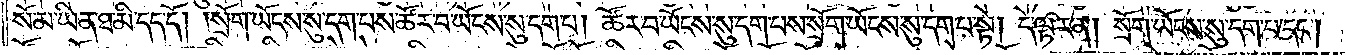སོ་མ་ཡིན་ཐ་མི་དད་དོ། །སྲོག་ཡོངས་སུ་དག་པས་ཚོར་བ་ཡོངས་སུ་དག་པ། ཚོར་བ་ཡོངས་སུ་དག་པས་སྲོག་ཡོངས་སུ་དག་པ་སྟེ། དེ་ལྟར་ན། སྲོག་ཡོངས་སུ་དག་པ་དང༌།
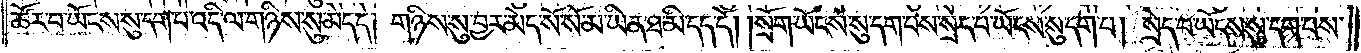ཚོར་བ་ཡོངས་སུ་དག་པ་འདི་ལ་གཉིས་སུ་མེད་དེ། གཉིས་སུ་བྱར་མེད་སོ་སོ་མ་ཡིན་ཐ་མི་དད་དོ། །སྲོག་ཡོངས་སུ་དག་པས་སྲེད་པ་ཡོངས་སུ་དག་པ། སྲེད་པ་ཡོངས་སུ་དག་པས་
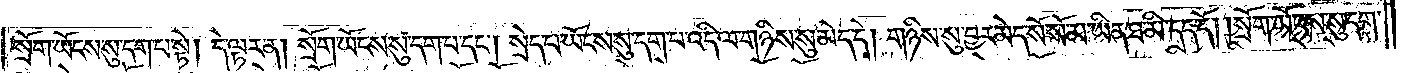སྲོག་ཡོངས་སུ་དག་པ་སྟེ། དེ་ལྟར་ན། སྲོག་ཡོངས་སུ་དག་པ་དང༌། སྲེད་པ་ཡོངས་སུ་དག་པ་འདི་ལ་གཉིས་སུ་མེད་དེ། གཉིས་སུ་བྱར་མེད་སོ་སོ་མ་ཡིན་ཐ་མི་དད་དོ། །སྲོག་ཡོངས་སུ་དག་
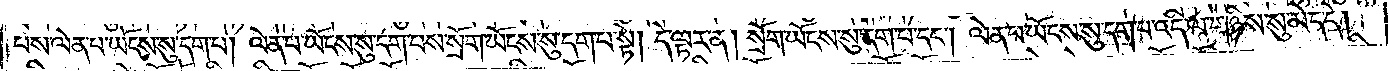པས་ལེན་པ་ཡོངས་སུ་དག་པ། ལེན་པ་ཡོངས་སུ་དག་པས་སྲོག་ཡོངས་སུ་དག་པ་སྟེ། དེ་ལྟར་ན། སྲོག་ཡོངས་སུ་དག་པ་དང༌། ལེན་པ་ཡོངས་སུ་དག་པ་འདི་ལ་གཉིས་སུ་མེད་དེ།
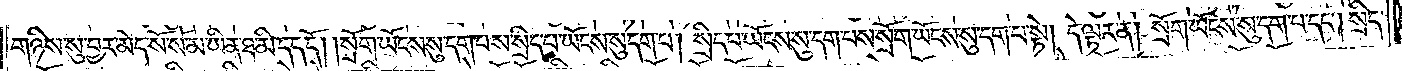གཉིས་སུ་བྱར་མེད་སོ་སོ་མ་ཡིན་ཐ་མི་དད་དོ། །སྲོག་ཡོངས་སུ་དག་པས་སྲིད་པ་ཡོངས་སུ་དག་པ། སྲིད་པ་ཡོངས་སུ་དག་པས་སྲོག་ཡོངས་སུ་དག་པ་སྟེ། དེ་ལྟར་ན། སྲོག་ཡོངས་སུ་དག་པ་དང༌། སྲིད་
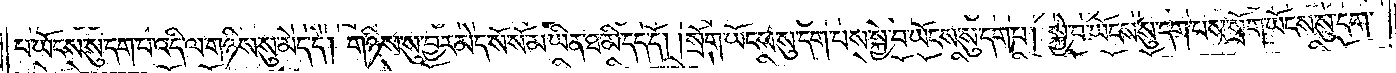པ་ཡོངས་སུ་དག་པ་འདི་ལ་གཉིས་སུ་མེད་དེ། གཉིས་སུ་བྱར་མེད་སོ་སོ་མ་ཡིན་ཐ་མི་དད་དོ། །སྲོག་ཡོངས་སུ་དག་པས་སྐྱེ་བ་ཡོངས་སུ་དག་པ། སྐྱེ་བ་ཡོངས་སུ་དག་པས་སྲོག་ཡོངས་སུ་དག་
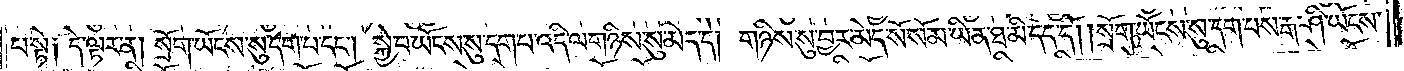པ་སྟེ༑ དེ་ལྟར་ན། སྲོག་ཡོངས་སུ་དག་པ་དང༌། སྐྱེ་བ་ཡོངས་སུ་དག་པ་འདི་ལ་གཉིས་སུ་མེད་དེ། གཉིས་སུ་བྱར་མེད་སོ་སོ་མ་ཡིན་ཐ་མི་དད་དོ། །སྲོག་ཡོངས་སུ་དག་པས་རྒ་ཤི་ཡོངས་
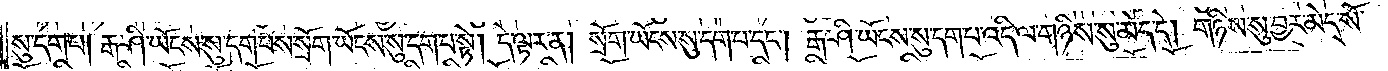སུ་དག་པ། རྒ་ཤི་ཡོངས་སུ་དག་པས་སྲོག་ཡོངས་སུ་དག་པ་སྟེ། དེ་ལྟར་ན། སྲོག་ཡོངས་སུ་དག་པ་དང༌། རྒ་ཤི་ཡོངས་སུ་དག་པ་འདི་ལ་གཉིས་སུ་མེད་དེ། གཉིས་སུ་བྱར་མེད་སོ་
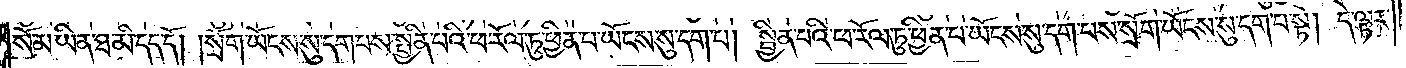སོ་མ་ཡིན་ཐ་མི་དད་དོ། །སྲོག་ཡོངས་སུ་དག་པས་སྦྱིན་པའི་ཕ་རོལ་ཏུ་ཕྱིན་པ་ཡོངས་སུ་དག་པ། སྦྱིན་པའི་ཕ་རོལ་ཏུ་ཕྱིན་པ་ཡོངས་སུ་དག་པས་སྲོག་ཡོངས་སུ་དག་པ་སྟེ། དེ་ལྟར་
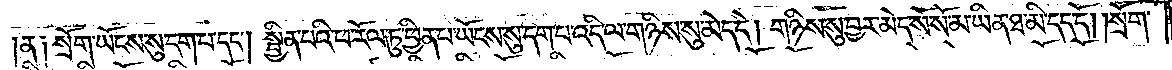ན༑ སྲོག་ཡོངས་སུ་དག་པ་དང༌། སྦྱིན་པའི་ཕ་རོལ་ཏུ་ཕྱིན་པ་ཡོངས་སུ་དག་པ་འདི་ལ་གཉིས་སུ་མེད་དེ། གཉིས་སུ་བྱར་མེད་སོ་སོ་མ་ཡིན་ཐ་མི་དད་དོ། །སྲོག་
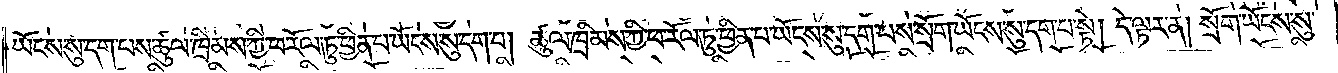ཡོངས་སུ་དག་པས་ཚུལ་ཁྲིམས་ཀྱི་ཕ་རོལ་ཏུ་ཕྱིན་པ་ཡོངས་སུ་དག་པ། ཚུལ་ཁྲིམས་ཀྱི་ཕ་རོལ་ཏུ་ཕྱིན་པ་ཡོངས་སུ་དག་པས་སྲོག་ཡོངས་སུ་དག་པ་སྟེ། དེ་ལྟར་ན། སྲོག་ཡོངས་སུ་
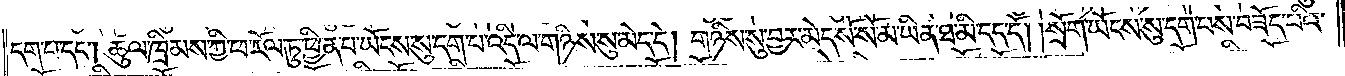དག་པ་དང༌། ཚུལ་ཁྲིམས་ཀྱི་ཕ་རོལ་ཏུ་ཕྱིན་པ་ཡོངས་སུ་དག་པ་འདི་ལ་གཉིས་སུ་མེད་དེ། གཉིས་སུ་བྱར་མེད་སོ་སོ་མ་ཡིན་ཐ་མི་དད་དོ། །སྲོག་ཡོངས་སུ་དག་པས་བཟོད་པའི་
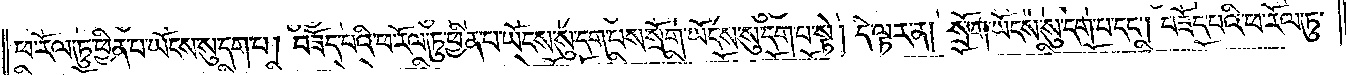ཕ་རོལ་ཏུ་ཕྱིན་པ་ཡོངས་སུ་དག་པ། བཟོད་པའི་ཕ་རོལ་ཏུ་ཕྱིན་པ་ཡོངས་སུ་དག་པས་སྲོག་ཡོངས་སུ་དག་པ་སྟེ། དེ་ལྟར་ན། སྲོག་ཡོངས་སུ་དག་པ་དང༌། བཟོད་པའི་ཕ་རོལ་ཏུ་
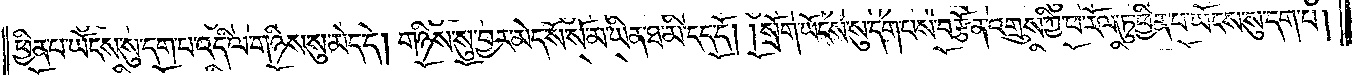ཕྱིན་པ་ཡོངས་སུ་དག་པ་འདི་ལ་གཉིས་སུ་མེད་དེ། གཉིས་སུ་བྱར་མེད་སོ་སོ་མ་ཡིན་ཐ་མི་དད་དོ། །སྲོག་ཡོངས་སུ་དག་པས་བརྩོན་འགྲུས་ཀྱི་ཕ་རོལ་ཏུ་ཕྱིན་པ་ཡོངས་སུ་དག་པ།
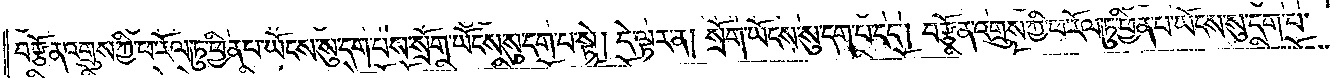བརྩོན་འགྲུས་ཀྱི་ཕ་རོལ་ཏུ་ཕྱིན་པ་ཡོངས་སུ་དག་པས་སྲོག་ཡོངས་སུ་དག་པ་སྟེ། དེ་ལྟར་ན། སྲོག་ཡོངས་སུ་དག་པ་དང༌། བརྩོན་འགྲུས་ཀྱི་ཕ་རོལ་ཏུ་ཕྱིན་པ་ཡོངས་སུ་དག་པ་
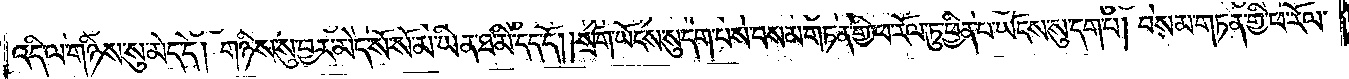འདི་ལ་གཉིས་སུ་མེད་དེ། གཉིས་སུ་བྱར་མེད་སོ་སོ་མ་ཡིན་ཐ་མི་དད་དོ། །སྲོག་ཡོངས་སུ་དག་པས་བསམ་གཏན་གྱི་ཕ་རོལ་ཏུ་ཕྱིན་པ་ཡོངས་སུ་དག་པ། བསམ་གཏན་གྱི་ཕ་རོལ་
